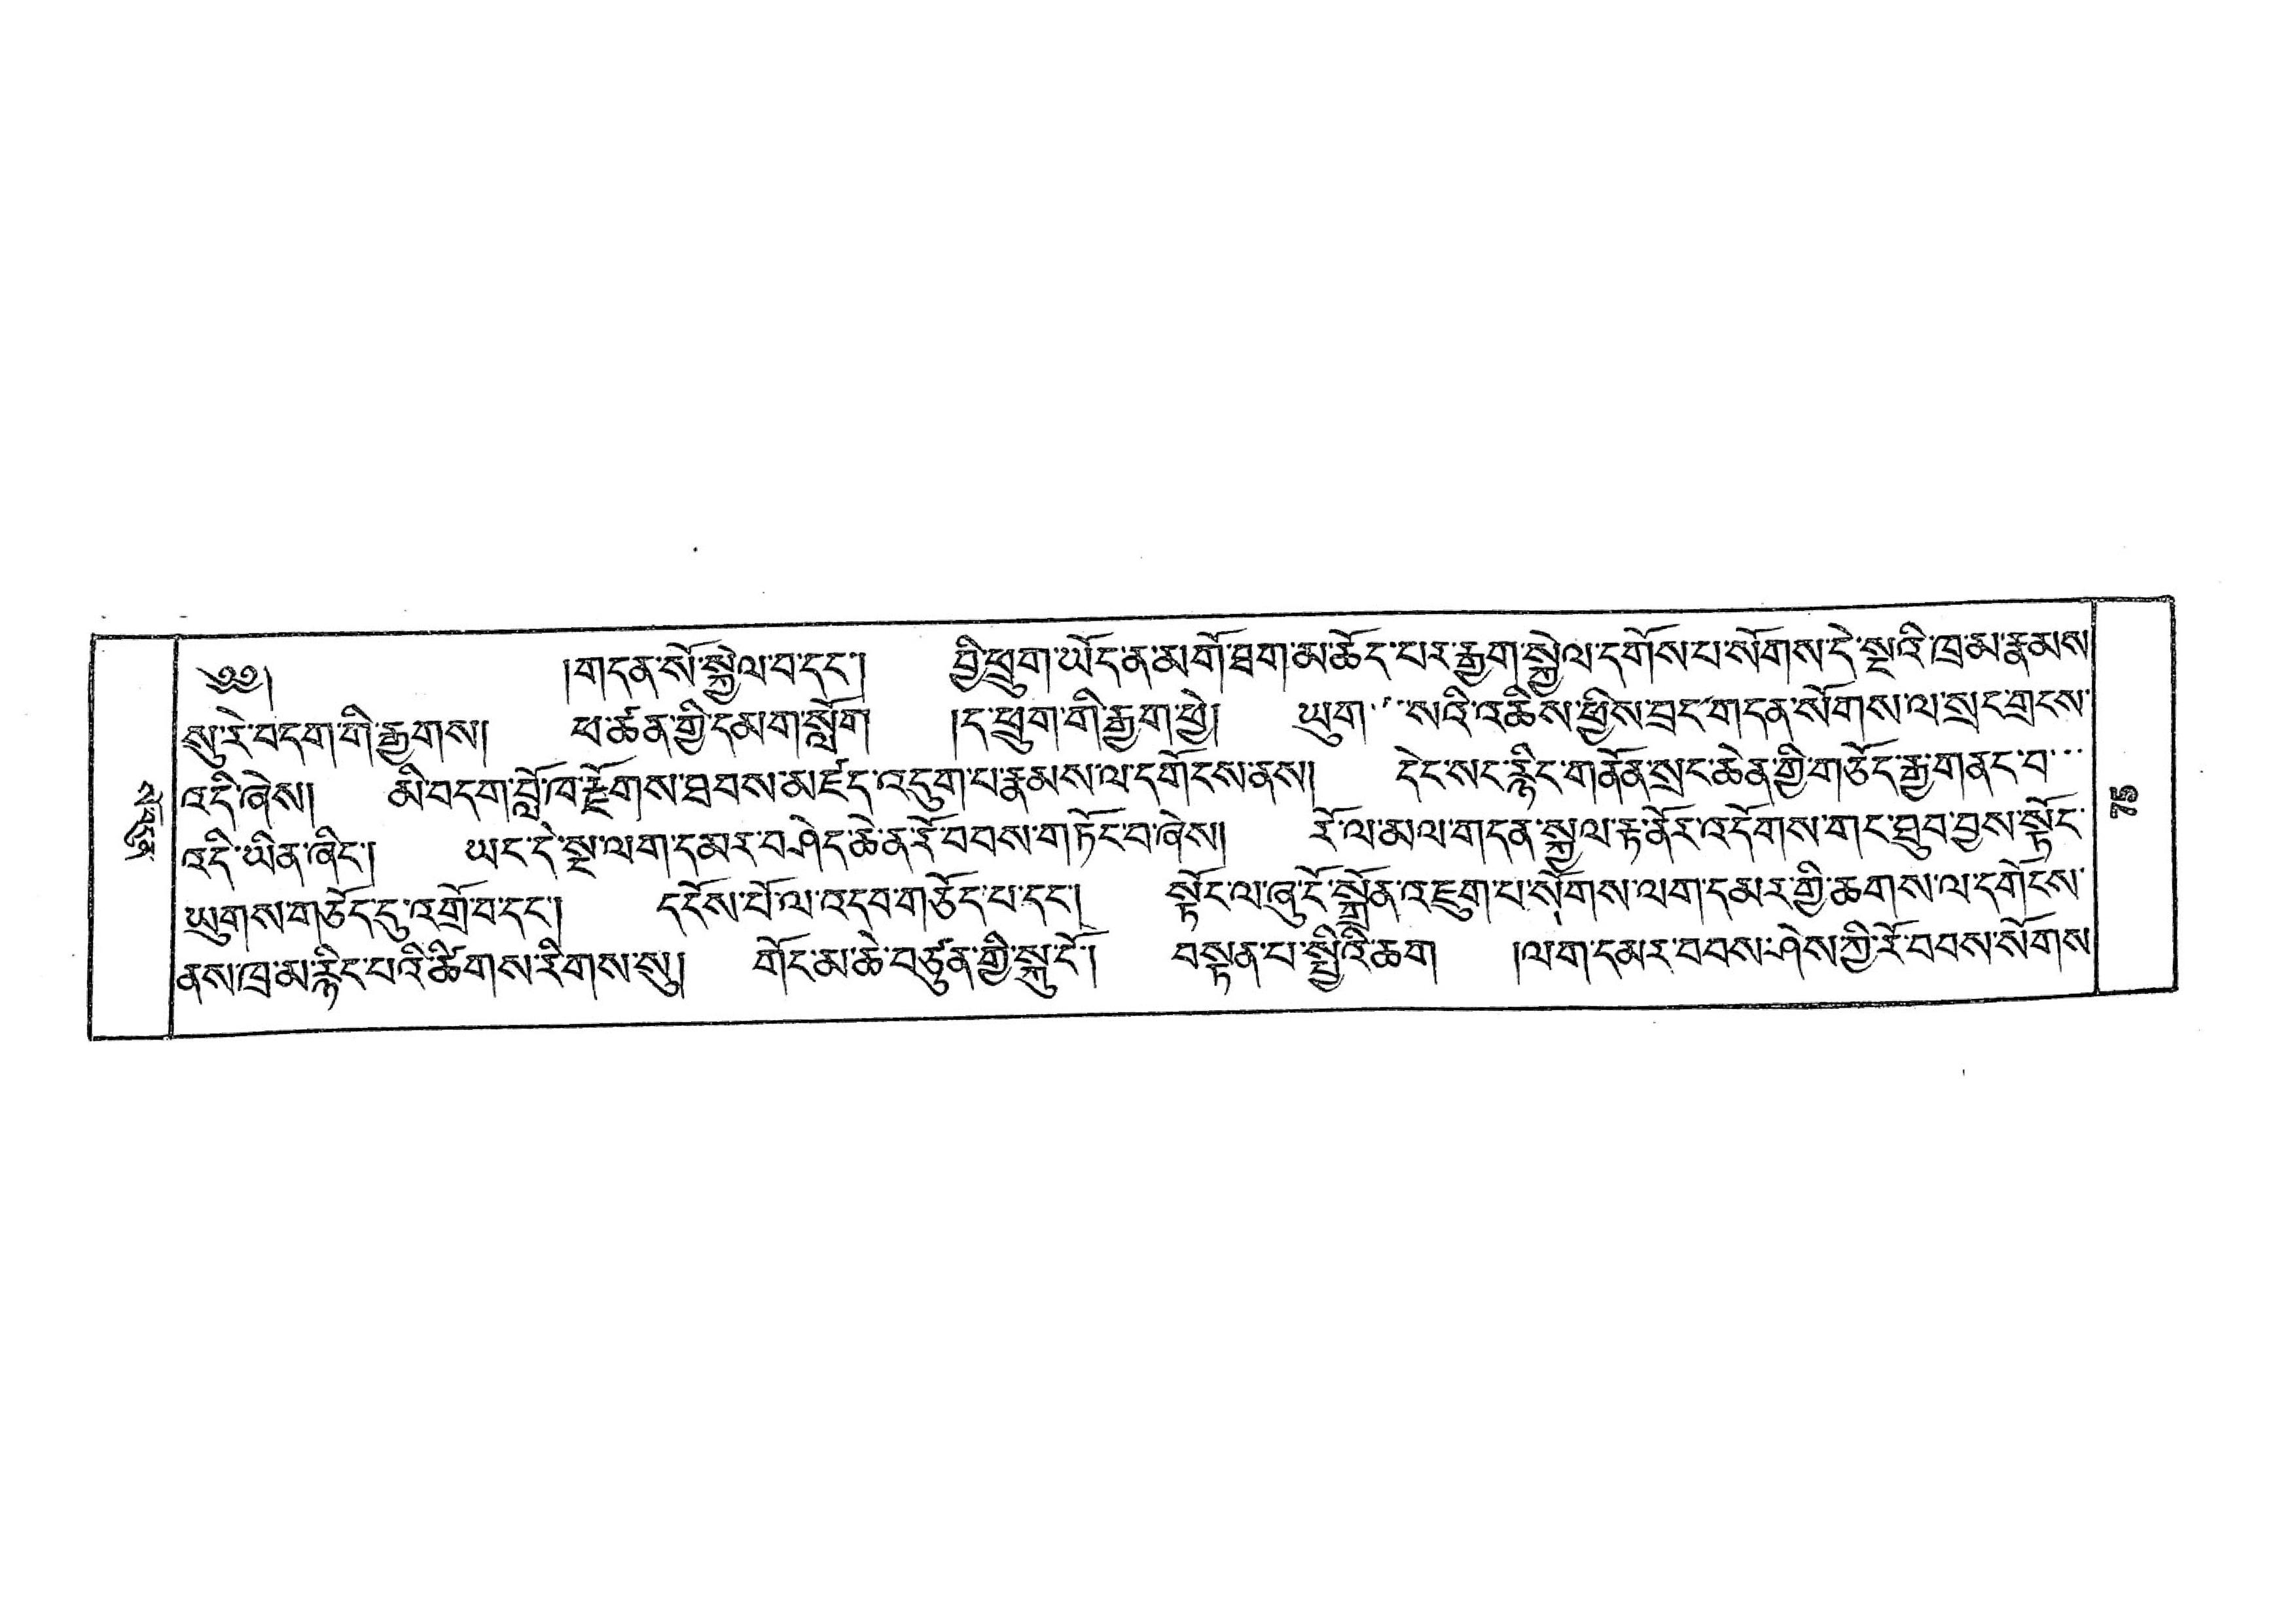སོ་བདུན་
༄༅།  །གདན་སོ་སྐྱེལ་བ་དང་། བྱི་ཕྲུག་ཡོད་ན་མགོ་ཐག་མཆོད་པར་རྒྱག་སྐྱེལ་དགོས་པ་སོགས་དེ་སྔའི་ཁྲ་མ་རྣམས་
སུ་རེ་བདག་གི་རྒྱགས། ཕ་ཚན་གྱི་དོམག་སློག །ད་ཕྲུག་གི་རྒྱག་ཕྱེ། ཡུག་་་སའི་འཆིས་ཕྱིས་བྲང་གདན་སོགས་ལ་སྲང་གྲངས་
འདི་ཞེས། མི་བདག་བློ་ཁ་རྫོགས་ཐབས་མཛད་འདུག་པ་རྣམས་ལ་དགོངས་ནས། དེང་སང་རྙིང་གནོན་སྲང་ཆེན་གྱི་གཅོད་རྒྱ་གནང་བ་་་
འདི་ཡིན་ཞིང་། ཡང་དེ་སྔ་ལག་དམར་བཤེད་ཆེ་ན་རོ་བབས་གཏོང་བ་ཞེས། རོལ་མལ་གདན་སྐྱལ་རྟ་ནོར་འདོགས་གང་ཐུབ་བྱས་སྟོང་
ཡུགས་གཅོད་དུ་འགྲོ་བ་དང་། དངོས་པོ་ལ་འདབ་གཅོད་པ་དང་། སྟོང་ལ་ཞུ་ངོ་སྒྲོན་འཇུག་པ་སོགས་ལག་དམར་གྱི་ཆགས་ལ་དགོངས་
ནས་ཁྲ་མ་རྙིང་པའི་ཚིགས་རིགས་སུ། གོང་མ་ཆེ་བཙུན་གྱི་སྐུ་ངོ་། བསྟན་པ་སྤྱིའི་ཆག །ལག་དམར་བབས་ཤེས་ཀྱི་རོ་བབས་སོགས་
